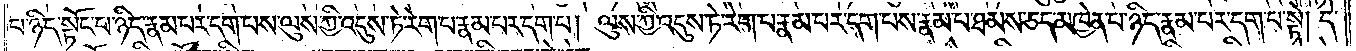པ་ཉིད་སྟོང་པ་ཉིད་རྣམ་པར་དག་པས་ལུས་ཀྱི་འདུས་ཏེ་རེག་པ་རྣམ་པར་དག་པ། ལུས་ཀྱི་འདུས་ཏེ་རེག་པ་རྣམ་པར་དག་པས་རྣམ་པ་ཐམས་ཅད་མཁྱེན་པ་ཉིད་རྣམ་པར་དག་པ་སྟེ། དེ་
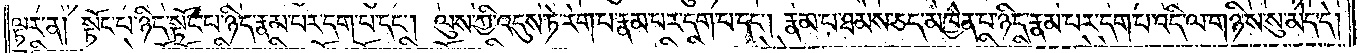ལྟར་ན། སྟོང་པ་ཉིད་སྟོང་པ་ཉིད་རྣམ་པར་དག་པ་དང༌། ལུས་ཀྱི་འདུས་ཏེ་རེག་པ་རྣམ་པར་དག་པ་དང༌། རྣམ་པ་ཐམས་ཅད་མཁྱེན་པ་ཉིད་རྣམ་པར་དག་པ་འདི་ལ་གཉིས་སུ་མེད་དེ།
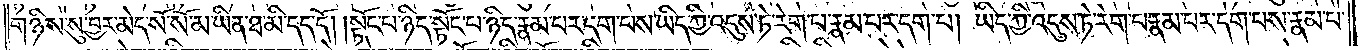གཉིས་སུ་བྱར་མེད་སོ་སོ་མ་ཡིན་ཐ་མི་དད་དོ། །སྟོང་པ་ཉིད་སྟོང་པ་ཉིད་རྣམ་པར་དག་པས་ཡིད་ཀྱི་འདུས་ཏེ་རེག་པ་རྣམ་པར་དག་པ། ཡིད་ཀྱི་འདུས་ཏེ་རེག་པ་རྣམ་པར་དག་པས་རྣམ་པ་
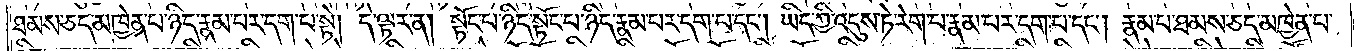ཐམས་ཅད་མཁྱེན་པ་ཉིད་རྣམ་པར་དག་པ་སྟེ། དེ་ལྟར་ན། སྟོང་པ་ཉིད་སྟོང་པ་ཉིད་རྣམ་པར་དག་པ་དང༌། ཡིད་ཀྱི་འདུས་ཏེ་རེག་པ་རྣམ་པར་དག་པ་དང༌། རྣམ་པ་ཐམས་ཅད་མཁྱེན་པ་
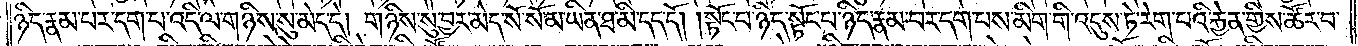ཉིད་རྣམ་པར་དག་པ་འདི་ལ་གཉིས་སུ་མེད་དེ། གཉིས་སུ་བྱར་མེད་སོ་སོ་མ་ཡིན་ཐ་མི་དད་དོ། །སྟོང་པ་ཉིད་སྟོང་པ་ཉིད་རྣམ་པར་དག་པས་མིག་གི་འདུས་ཏེ་རེག་པའི་རྐྱེན་གྱིས་ཚོར་བ་
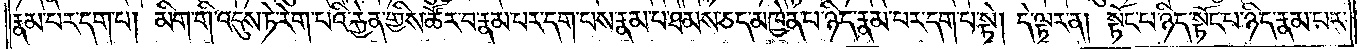རྣམ་པར་དག་པ། མིག་གི་འདུས་ཏེ་རེག་པའི་རྐྱེན་གྱིས་ཚོར་བ་རྣམ་པར་དག་པས་རྣམ་པ་ཐམས་ཅད་མཁྱེན་པ་ཉིད་རྣམ་པར་དག་པ་སྟེ། དེ་ལྟར་ན། སྟོང་པ་ཉིད་སྟོང་པ་ཉིད་རྣམ་པར་
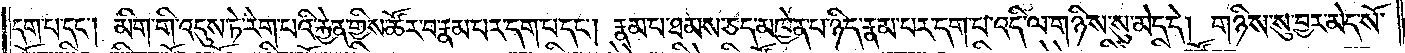དག་པ་དང༌། མིག་གི་འདུས་ཏེ་རེག་པའི་རྐྱེན་གྱིས་ཚོར་བ་རྣམ་པར་དག་པ་དང༌། རྣམ་པ་ཐམས་ཅད་མཁྱེན་པ་ཉིད་རྣམ་པར་དག་པ་འདི་ལ་གཉིས་སུ་མེད་དེ། གཉིས་སུ་བྱར་མེད་སོ་
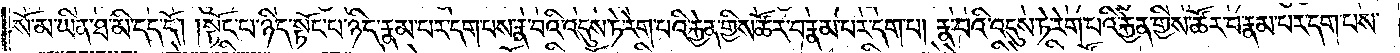སོ་མ་ཡིན་ཐ་མི་དད་དོ། །སྟོང་པ་ཉིད་སྟོང་པ་ཉིད་རྣམ་པར་དག་པས་རྣ་བའི་འདུས་ཏེ་རེག་པའི་རྐྱེན་གྱིས་ཚོར་བ་རྣམ་པར་དག་པ། རྣ་བའི་འདུས་ཏེ་རེག་པའི་རྐྱེན་གྱིས་ཚོར་བ་རྣམ་པར་དག་པས་
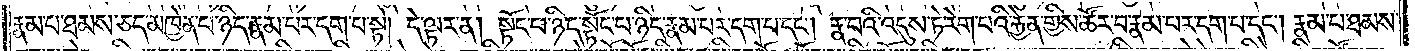རྣམ་པ་ཐམས་ཅད་མཁྱེན་པ་ཉིད་རྣམ་པར་དག་པ་སྟེ། དེ་ལྟར་ན། སྟོང་པ་ཉིད་སྟོང་པ་ཉིད་རྣམ་པར་དག་པ་དང༌། རྣ་བའི་འདུས་ཏེ་རེག་པའི་རྐྱེན་གྱིས་ཚོར་བ་རྣམ་པར་དག་པ་དང༌། རྣམ་པ་ཐམས་
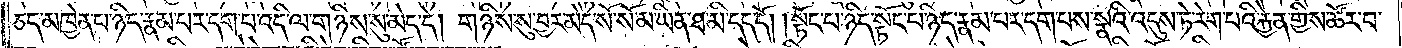ཅད་མཁྱེན་པ་ཉིད་རྣམ་པར་དག་པ་འདི་ལ་གཉིས་སུ་མེད་དེ། གཉིས་སུ་བྱར་མེད་སོ་སོ་མ་ཡིན་ཐ་མི་དད་དོ། །སྟོང་པ་ཉིད་སྟོང་པ་ཉིད་རྣམ་པར་དག་པས་སྣའི་འདུས་ཏེ་རེག་པའི་རྐྱེན་གྱིས་ཚོར་བ་
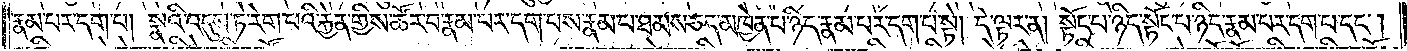རྣམ་པར་དག་པ། སྣའི་འདུས་ཏེ་རེག་པའི་རྐྱེན་གྱིས་ཚོར་བ་རྣམ་པར་དག་པས་རྣམ་པ་ཐམས་ཅད་མཁྱེན་པ་ཉིད་རྣམ་པར་དག་པ་སྟེ། དེ་ལྟར་ན། སྟོང་པ་ཉིད་སྟོང་པ་ཉིད་རྣམ་པར་དག་པ་དང༌།
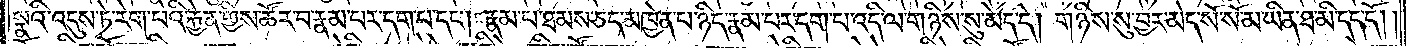སྣའི་འདུས་ཏེ་རེག་པའི་རྐྱེན་གྱིས་ཚོར་བ་རྣམ་པར་དག་པ་དང༌། རྣམ་པ་ཐམས་ཅད་མཁྱེན་པ་ཉིད་རྣམ་པར་དག་པ་འདི་ལ་གཉིས་སུ་མེད་དེ། གཉིས་སུ་བྱར་མེད་སོ་སོ་མ་ཡིན་ཐ་མི་དད་དོ། །
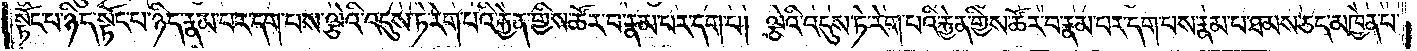སྟོང་པ་ཉིད་སྟོང་པ་ཉིད་རྣམ་པར་དག་པས་ལྕེའི་འདུས་རེག་པའི་རྐྱེན་གྱིས་ཚོར་བ་རྣམ་པར་དག་པ། ལྕེའི་འདུས་ཏེ་རེག་པའི་རྐྱེན་གྱིས་ཚོར་བ་རྣམ་པར་དག་པས་རྣམ་པ་ཐམས་ཅད་མཁྱེན་པ་
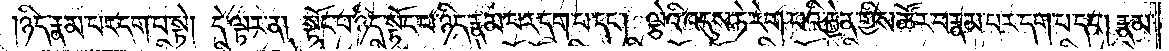ཉིད་རྣམ་པར་དག་པ་སྟེ། དེ་ལྟར་ན། སྟོང་པ་ཉིད་སྟོང་པ་ཉིད་རྣམ་པར་དག་པ་དང༌། ལྕེའི་འདུས་ཏེ་རེག་པའི་རྐྱེན་གྱིས་ཚོར་བ་རྣམ་པར་དག་པ་དང༌། རྣམ་
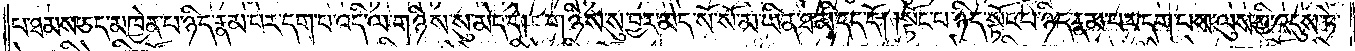པ་ཐམས་ཅད་མཁྱེན་པ་ཉིད་རྣམ་པར་དག་པ་འདི་ལ་གཉིས་སུ་མེད་དེ། གཉིས་སུ་བྱར་མེད་སོ་སོ་མ་ཡིན་ཐ་མི་དད་དོ། །སྟོང་པ་ཉིད་སྟོང་པ་ཉིད་རྣམ་པར་དག་པས་ལུས་ཀྱི་འདུས་ཏེ་
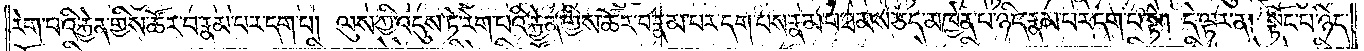རེག་པའི་རྐྱེན་གྱིས་ཚོར་བ་རྣམ་པར་དག་པ། ལུས་ཀྱི་འདུས་ཏེ་རེག་པའི་རྐྱེན་གྱིས་ཚོར་བ་རྣམ་པར་དག་པས་རྣམ་པར་དག་པས་རྣམ་པ་ཐམས་ཅད་མཁྱེན་པ་ཉིད་རྣམ་པར་དག་པ་སྟེ། དེ་ལྟར་ན། སྟོང་པ་ཉིད་
